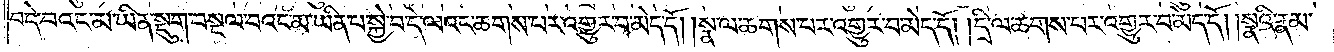བདེ་བའང་མ་ཡིན་སྡུག་བསྔལ་བའང་མ་ཡིན་པ་སྐྱེ་བ་དེ་ལའང་ཆགས་པར་འགྱུར་བ་མེད་དོ། །སྣ་ལ་ཆགས་པར་འགྱུར་བ་མེད་དོ། །དྲི་ལ་ཆགས་པར་འགྱུར་བ་མེད་དོ། །སྣའི་རྣམ་
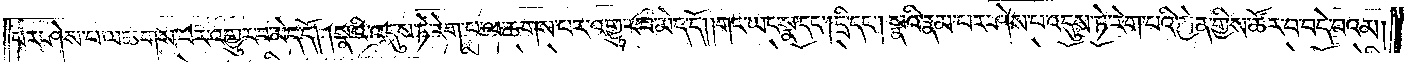པར་ཤེས་པ་ལ་ཆགས་པར་འགྱུར་བ་མེད་དོ། །སྣའི་འདུས་ཏེ་རེག་པ་ལ་ཆགས་པར་འགྱུར་བ་མེད་དོ། །གང་ཡང་སྣ་དང༌། དྲི་དང༌། སྣའི་རྣམ་པར་ཤེས་པ་འདུས་ཏེ་རེག་པའི་རྐྱེན་གྱིས་ཚོར་བ་བདེ་བའམ།
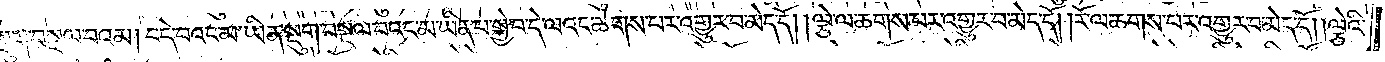སྡུག་བསྔལ་བའམ། བདེ་བའང་མ་ཡིན་སྡུག་བསྔལ་བའང་མ་ཡིན་པ་སྐྱེ་བ་དེ་ལའང་ཆགས་པར་འགྱུར་བ་མེད་དོ། །ལྕེ་ལ་ཆགས་པར་འགྱུར་བ་མེད་དོ། །རོ་ལ་ཆགས་པར་འགྱུར་བ་མེད་དོ། །ལྕེའི་
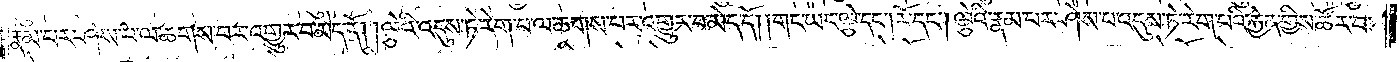རྣམ་པར་ཤེས་པ་ལ་ཆགས་པར་འགྱུར་བ་མེད་དོ། །ལྕེའི་འདུས་ཏེ་རེག་པ་ལ་ཆགས་པར་འགྱུར་བ་མེད་དོ། །གང་ཡང་ལྕེ་དང༌། རོ་དང༌། ལྕེའི་རྣམ་པར་ཤེས་པ་འདུས་ཏེ་རེག་པའི་རྐྱེན་གྱིས་ཚོར་བ་
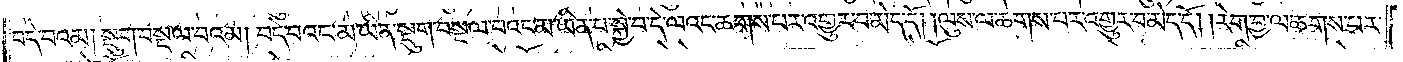བདེ་བའམ། སྡུག་བསྔལ་བའམ། བདེ་བའང་མ་ཡིན་སྡུག་བསྔལ་བའང་མ་ཡིན་པ་སྐྱེ་བ་དེ་ལའང་ཆགས་པར་འགྱུར་བ་མེད་དོ། །ལུས་ལ་ཆགས་པར་འགྱུར་བ་མེད་དོ། །རེག་བྱ་ལ་ཆགས་པར་
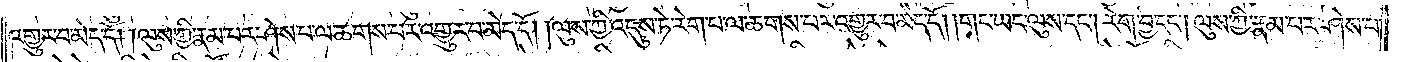འགྱུར་བ་མེད་དོ། །ལུས་ཀྱི་རྣམ་པར་ཤེས་པ་ལ་ཆགས་པར་འགྱུར་བ་མེད་དོ། །ལུས་ཀྱི་འདུས་ཏེ་རེག་པ་ལ་ཆགས་པར་འགྱུར་བ་མེད་དོ། །གང་ཡང་ལུས་དང༌། རེག་བྱ་དང༌། ལུས་ཀྱི་རྣམ་པར་ཤེས་པ་
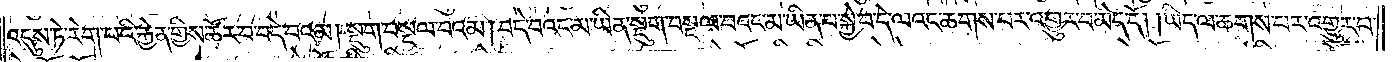འདུས་ཏེ་རེག་པའི་རྐྱེན་གྱིས་ཚོར་བ་བདེ་བའམ། སྡུག་བསྔལ་བའམ། བདེ་བའང་མ་ཡིན་སྡུག་བསྔལ་བའང་མ་ཡིན་པ་སྐྱེ་བ་དེ་ལའང་ཆགས་པར་འགྱུར་བ་མེད་དོ། །ཡིད་ལ་ཆགས་པར་འགྱུར་བ་
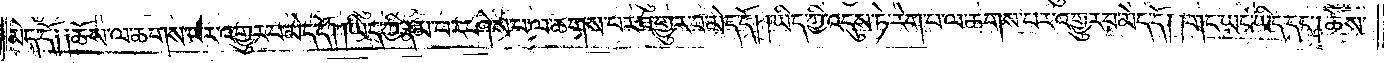མེད་དོ༑ ༑ཆོས་ལ་ཆགས་པར་འགྱུར་བ་མེད་དོ། །ཡིད་ཀྱི་རྣམ་པར་ཤེས་པ་ལ་ཆགས་པར་འགྱུར་བ་མེད་དོ། །ཡིད་ཀྱི་འདུས་ཏེ་རེག་པ་ལ་ཆགས་པར་འགྱུར་བ་མེད་དོ། །གང་ཡང་ཡིད་དང༌། ཆོས་
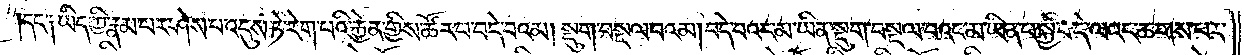དང་༑ ཡིད་ཀྱི་རྣམ་པར་ཤེས་པ་འདུས་ཏེ་རེག་པའི་རྐྱེན་གྱིས་ཚོར་བ་བདེ་བའམ། སྡུག་བསྔལ་བའམ། བདེ་བའང་མ་ཡིན་སྡུག་བསྔལ་བའང་མ་ཡིན་པ་སྐྱེ་བ་དེ་ལའང་ཆགས་པར་
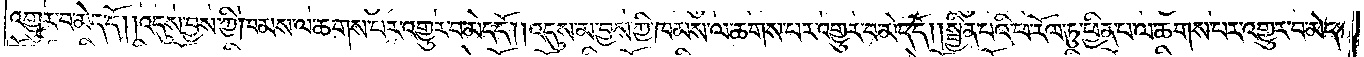འགྱུར་བ་མེད་དོ། །འདུས་བྱས་ཀྱི་ཁམས་ལ་ཆགས་པར་འགྱུར་བ་མེད་དོ། །འདུས་མ་བྱས་ཀྱི་ཁམས་ལ་ཆགས་པར་འགྱུར་བ་མེད་དོ། །སྦྱིན་པའི་ཕ་རོལ་ཏུ་ཕྱིན་པ་ལ་ཆགས་པར་འགྱུར་བ་མེད་
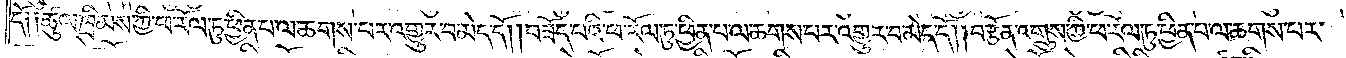དོ༑ ༑ཚུལ་ཁྲིམས་ཀྱི་ཕ་རོལ་ཏུ་ཕྱིན་པ་ལ་ཆགས་པར་འགྱུར་བ་མེད་དོ། །བཟོད་པའི་ཕ་རོལ་ཏུ་ཕྱིན་པ་ལ་ཆགས་པར་འགྱུར་བ་མེད་དོ། །བརྩོན་འགྲུས་ཀྱི་ཕ་རོལ་ཏུ་ཕྱིན་པ་ལ་ཆགས་པར་
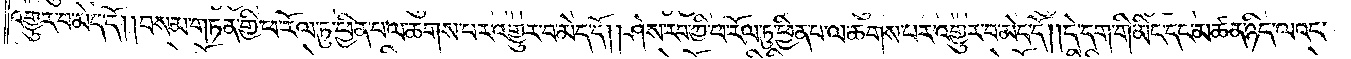འགྱུར་བ་མེད་དོ། །བསམ་གཏན་གྱི་ཕ་རོལ་ཏུ་ཕྱིན་པ་ལ་ཆགས་པར་འགྱུར་བ་མེད་དོ། །ཤེས་རབ་ཀྱི་ཕ་རོལ་ཏུ་ཕྱིན་པ་ལ་ཆགས་པར་འགྱུར་བ་མེད་དོ། །དེ་དག་གི་མིང་དང་མཚན་ཉིད་ལའང་
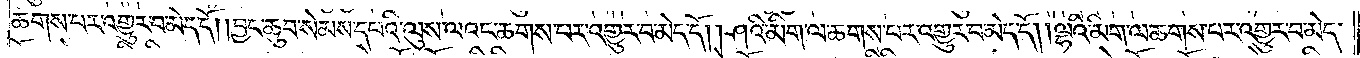ཆགས་པར་འགྱུར་བ་མེད་དོ། །བྱང་ཆུབ་སེམས་དཔའི་ལུས་ལའང་ཆགས་པར་འགྱུར་བ་མེད་དོ། །ཤའི་མིག་ལ་ཆགས་པར་འགྱུར་བ་མེད་དོ། །ལྷའི་མིག་ལ་ཆགས་པར་འགྱུར་བ་མེད་
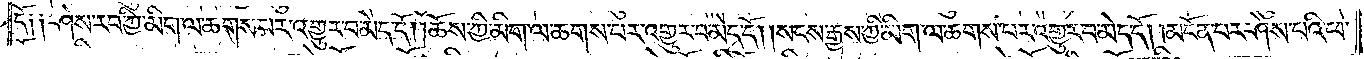དོ༑ ༑ཤེས་རབ་ཀྱི་མིག་ལ་ཆགས་པར་འགྱུར་བ་མེད་དོ༑ ༑ཆོས་ཀྱི་མིག་ལ་ཆགས་པར་འགྱུར་བ་མེད་དོ། །སངས་རྒྱས་ཀྱི་མིག་ལ་ཆགས་པར་འགྱུར་བ་མེད་དོ། །མངོན་པར་ཤེས་པའི་ཕ་
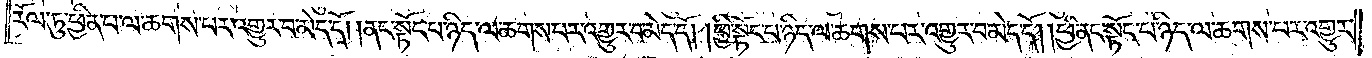རོལ་ཏུ་ཕྱིན་པ་ལ་ཆགས་པར་འགྱུར་བ་མེད་དོ། །ནང་སྟོང་པ་ཉིད་ལ་ཆགས་པར་འགྱུར་བ་མེད་དོ། །ཕྱི་སྟོང་པ་ཉིད་ལ་ཆགས་པར་འགྱུར་བ་མེད་དོ། །ཕྱི་ནང་སྟོང་པ་ཉིད་ལ་ཆགས་པར་འགྱུར་
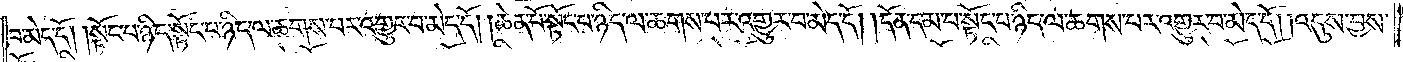བ་མེད་དོ། །སྟོང་པ་ཉིད་སྟོང་པ་ཉིད་ལ་ཆགས་པར་འགྱུར་བ་མེད་དོ། །ཆེན་པོ་སྟོང་པ་ཉིད་ལ་ཆགས་པར་འགྱུར་བ་མེད་དོ། །དོན་དམ་པ་སྟོང་པ་ཉིད་ལ་ཆགས་པར་འགྱུར་བ་མེད་དོ། །འདུས་བྱས་
